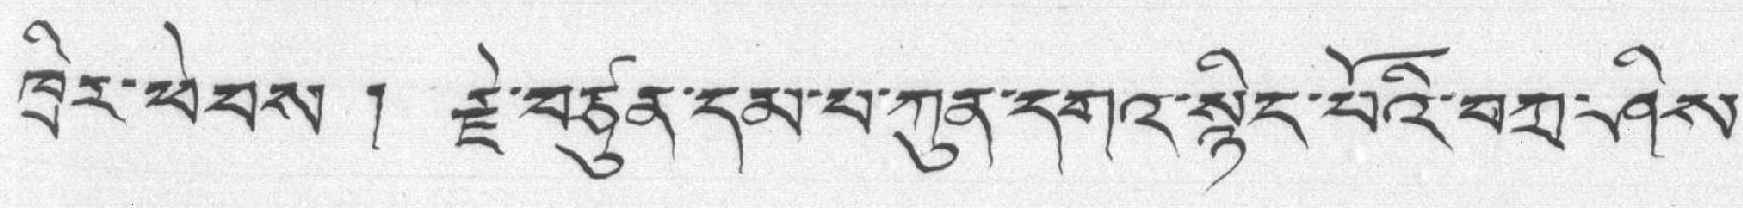ཁྲིར་ཕེབས། རྗེ་བཙུན་དམ་པ་ཀུན་དགའ་སྙིང་པོའི་བཀྲ་ཤིས་
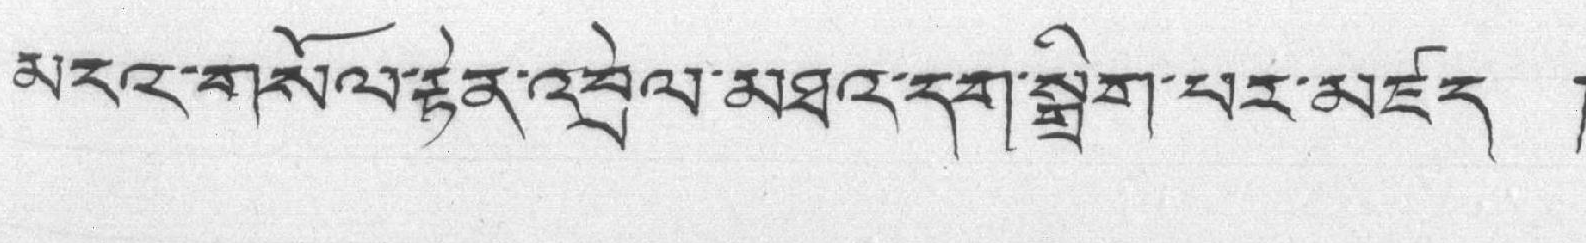མངའ་གསོལ་རྟེན་འབྲེལ་མཐའ་དག་སྒྲིག་པར་མཛད །
